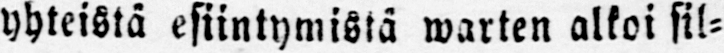yhteistä esiintymisiä warten alkoi sil-
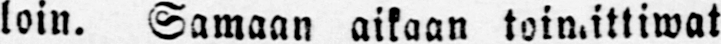loin. Samaan aikaan toimittiwat
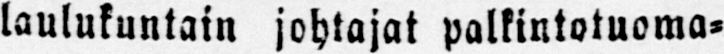laulukuntain johtajat palkintotuoma-
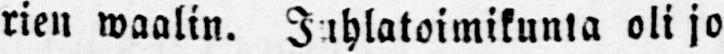rien waalin. Juhlatoimikunta oli jo
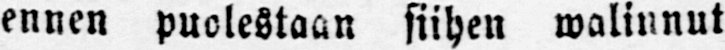ennen puolestaan siihen waliunut
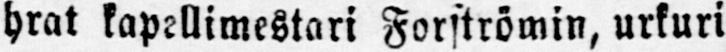hrat kapellimestari Forströmin, urkuri
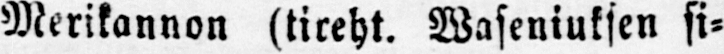Merikannon (tireht. Waseniuksen si-
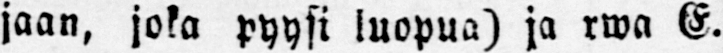jaan, joka pyysi luopua) ja rwa E.
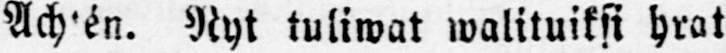Ach'én. Nyt tuliwat walituiksi hrat
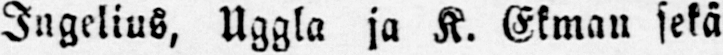Ingelius, Uggla ja K. Ekman sekä
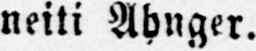neiti Abnger.
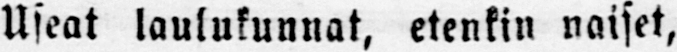Useat laulukunnat, etenkin naiset,
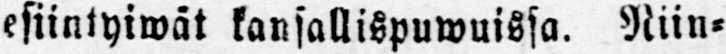esiintyiwät kansallispuwuissa. Niin-
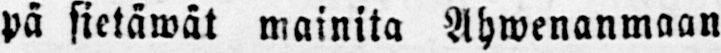pä sietäwät mainita Ahwenanmaan
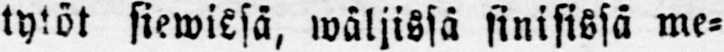tytöt siewiεsä, wäljissä sinisissä me-
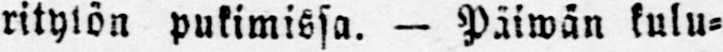ritytön pukimissa. — Päiwan kulu-
